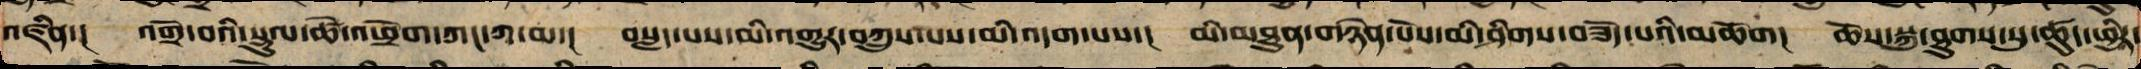འཛིན་། འགྲོ་བའི་སྡུག་བསྔལ་ཚེ་འཕྲོག་ཀང་ཀ་མ་། བསླད་པས་མི་འགྱུར་བཀྲུས་པས་མི་འདག་པས་། མི་འགྱུར་གཉེན་པོས་མི་ཤིགས་བཟོད་པའི་མཆོག། ཆོས་སྐུ་ཐུགས་སུ་ཚུད་ཕྱིར་
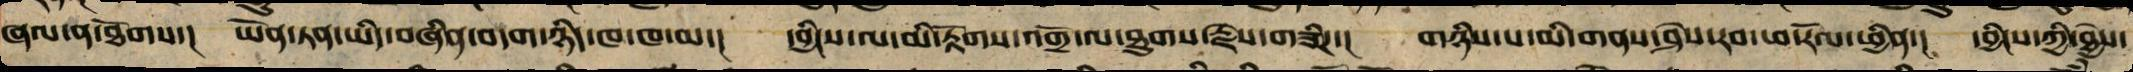ཞལ་ན་ཐོགས་། ཡོན་ཏན་ཡིད་བཞིན་བདག་ཉིད་ཁ་ཁ་མ་། དབྱིངས་ལས་མི་རྟོག་འགྲོ་ལ་ཐུགས་རྗེས་གཟིཌ་། གཉིས་ལ་མི་གནས་ཤེས་རབ་ཕ་རོལ་ཕྱིན་། དབྱིངས་ཀྱི་ཐྱེས
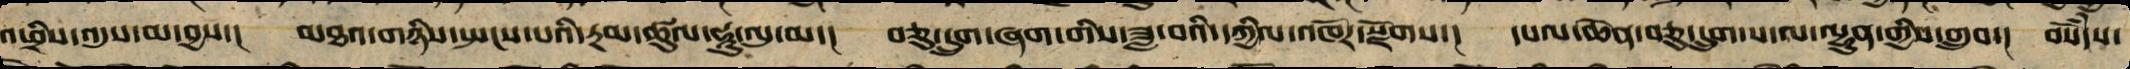འཕྲིས་འདུས་མ་བྱས་། མཐའ་གཉིས་སྤང་བའི་རྔམ་ཚུལ་ཧཱུ་ལུ་མ་། བཅུ་དྲུག་ཞག་གིས་ཟླ་བའི་དཀྱིལ་འཁོར་སྫོགས་། དཔལ་ཆེན་བཅུ་དྲུག་ས་ལ་ལྷུན་གྱིས་གྲུབ་། བསོདཾས་
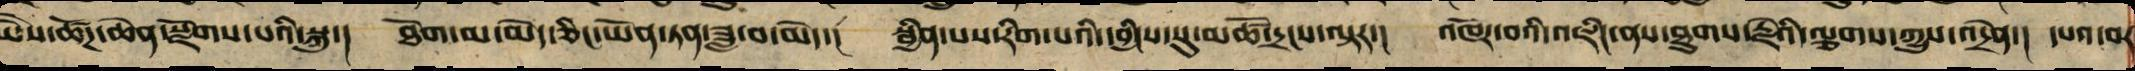ཡཻས་ཚོཌ་ཆེན་སྫོགས་པའི་སྐུ་། ཐོག་མཐའ་མེད་ཅིང་ཡོན་ཏན་ཟླ་བ་མེད་། སྦྱིན་པས་རིག་པའི་དབྱིངས་སུ་མཚོ་དྲངས་ལྟར་། འཁོར་བའི་འཇིང་ནས་ཐུགས་རྗེའི་ལྕགས་ཀྱུས་འདྲེན་། དཔའ་བར
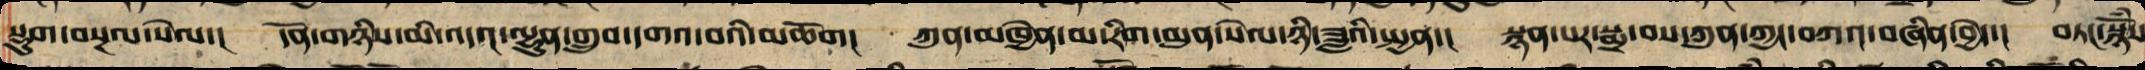སྡུག་བསྔལ་སེལ་། དོན་གཉིས་མི་འདའ་ལྷུན་གྲུབ་དགའ་བའི་མཆོག། ཀུན་མཁྱེན་མ་རིག་མུན་སེལ་ཉི་ཟླའི་སྤྱན་། སྙན་པར་སྨྲ་བས་ཀུན་ཀྱང་བཀའ་བཞིན་བྱེད་། བཏང་སྙོཾས་
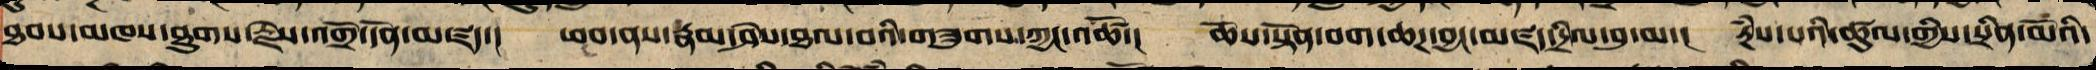ཐབས་མཁས་ཐུགས་རྗེས་འགྲོ་དོན་མཛད་། ཕན་པས་རྣམ་ཤེས་ཐལ་བའི་གཟུགས་ཀྱང་འཚོ་། ཆོས་སྟོན་བག་ཆཌ་བྱང་མཛད་དྲིལ་བུ་མ་། རྔཾས་པའི་ཚུལ་གྱིས་སྲིན་མོའི་
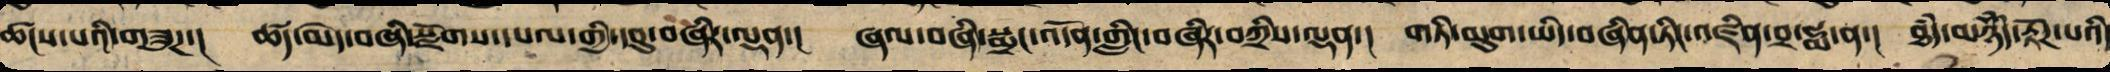ཚངས་པའི་གཟུཌ་། ཚད་མེད་བཞི་སྫོགས་དཔལ་གྱི་དབུ་བཞིར་ལྡན་། ཞལ་བཞིས་སྨྲང་འདོན་གླིང་བཞིར་བཀྲིས་ལྡན་། གཏི་མུག་ཡིད་བཞིན་རིན་ཆེན་བྲ་ཧྨ་ན་། ཐཾད་མཉོཾད་རྟོཌ་པའི་
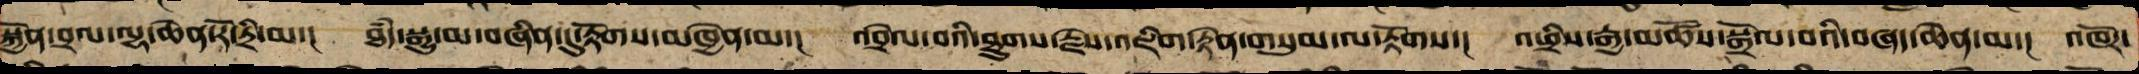སྐྱོན་བྲལ་ལྷ་ཆེན་རོ་ཏྲི་མ་།  ཐཾད་སྒྱུ་མ་བཞིན་དུ་རྟོགས་མཁྱེན་མ་། འབྲེལ་བའི་ཐུགས་རྗེས་འཇིག་རྟེན་གསུམ་ལ་རྟོགས་།  འཕྲིས་རྒྱ་མཚོས་སྒྲོལ་བའི་བཞད་ཆེན་མ་། འཁོར་
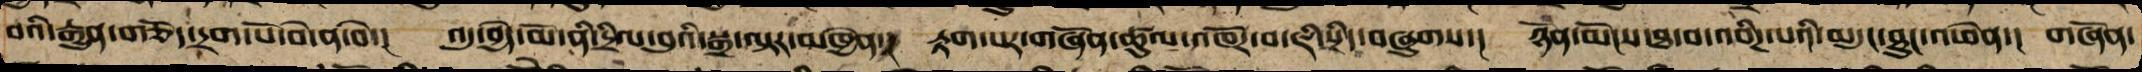བའི་རྒྱུན་གཅོད་དྲག་པོ་བེ་ན་བེ་།  འདུ་བྱེད་མོ་ནི་དྲིལ་བུའི་སྒྲ་ལྟར་མཁྱེན་། རྟག་པར་གཞོན་ཚུལ་འཁོར་བ་ཇི་སྲིད་བཞུགས་། ཉོན་མོངས་ཐ་བ་འབིཌ་པའི་མདུང་ཐུང་འཕེན་། གཞོན་
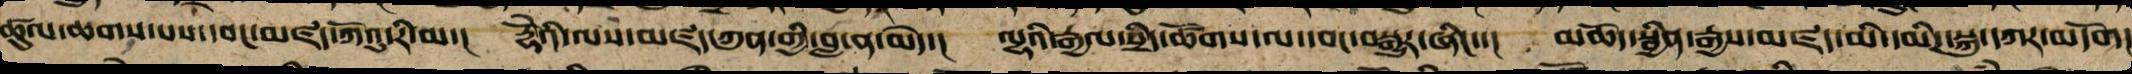ཚུལ་ཆགས་པས་དབང་མཛད་ཀོའུ་རི་མ་།  རྡོཻའི་ལས་མཛད་ཀུན་གྱི་བླ་ན་མེད་།  ལྷ་ཡི་རྒྱལ་སྲིད་ཚོགས་ལ་དབང་བསྒྱུར་ཞིང་།  མཆོད་སྦྱིན་རྒྱས་མི་དམིཌ་སྐུ་་དཀར་མདོག་
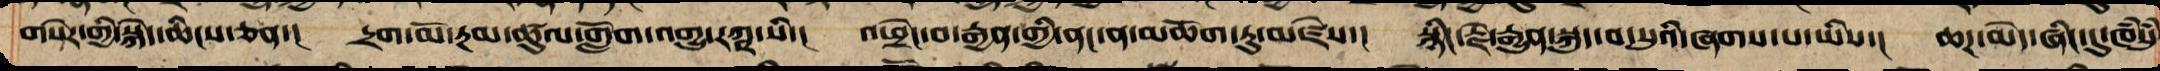གསེར་གྱི་སྐེད་ཆིངས་ཅན་།  དྲག་མོ་རྔམ་ཚུལ་གློག་འགྱུ་རཀྵ་སི་།  འཕྲེང་བ་རྒྱན་གྱི་ནང་ན་མཆོག་ཏུ་མཛེས་།   སྙིང་རྗེ་རྒྱུན་སྐུད་བ་སུའི་ཞགས་པ་ཡིས་།  ཆཌ་མེད་ཞིང་དུ་ཁཾསུཾ
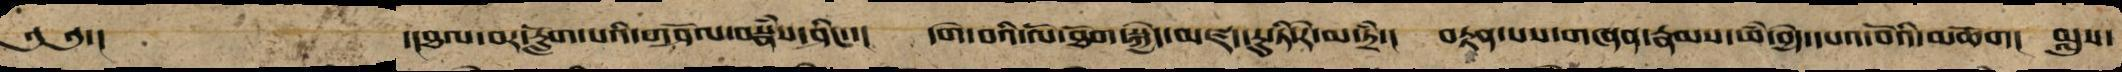༄༅་། ་།ཐལ་བར་རླག་པའི་གཤོལ་བསྣཾས་ཤིང་་། དགེ་བའི་ལོ་ཐོག་བསྐྱེད་མཛད་རུ་ཏི་རེ་མ་ཏྲཾ་། བརྟན་པས་གཞན་རྣམས་ཕཾ་བྱེད་དཔའ་བའི་མཆོག། མླུས་
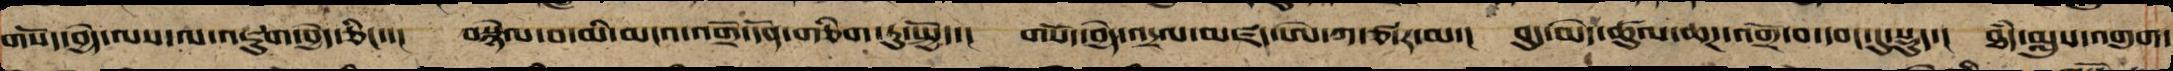གསོད་བྱེད་ལས་ལ་འཇུག་བྱེད་ཅིང་།་ བསྙེལ་བ་མི་མངའ་འགྲོ་དོན་གཅིག་ཏུ་སྤྱོད་། གསོད་བྱེད་འདྲལ་མཛད་ཨེ་ཀ་ཙ་ར་མ་། བུད་མེད་ཚུལ་ཆཌ་འགྲོ་བ་དབང་དུ་སྡུད་། ཐཾད་མ་ལུས་འགུག་
